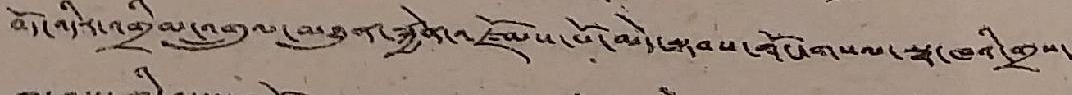བོད་འདིར་འགྲིམ་འགྲུལ་མཐུན་རྐྱེན་འཛོམས་པོ་མེད་སྟབས་གོང་གསལ་སྣ་ཁའི་གྲས་
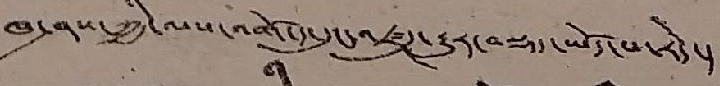ཁ་ཤས་ཀྱི་ལས་འགོ་ད་དུང་འཛུཊ་རྒྱུར་བསྡད་ཡོད་པ་རེད་།
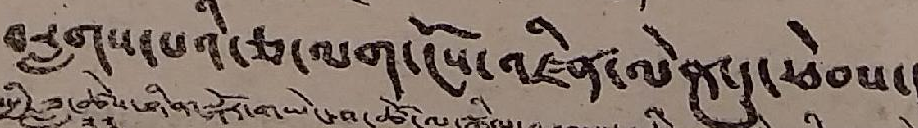བརླགས་པའི་ཅ་ལག་ངོས་འཛིན་ལེན་དུ་ཕེབས་།
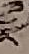༢
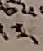༢༨
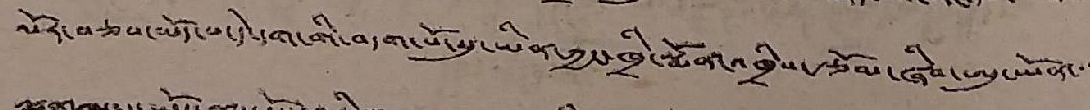ལོར་བཅས་ཡོད་པ་དེ་དག་གི་བདག་པོ་སུ་ཡིན་ཀྱང་ཁྲི་སྨོན་འཁྲིས་རྩོམ་ཞིབ་ཨུ་ཡོན་་་
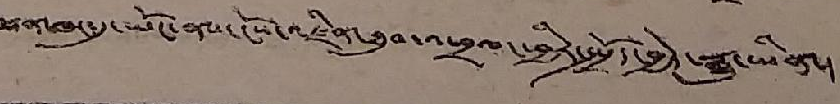ལྷན་ཁང་དུ་ཡོང་ནས་ངོས་འཛིན་ཐུབ་འཕྲལ་ཕྱིར་སྤྲོད་བྱེད་རྒྱུ་ཡིན་།
